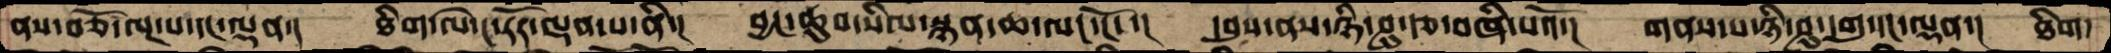ནས་བཅོ་ལྔ་པ་དང་ལྡན་།  ཐིག་ལེ་ང་རོར་ལྡན་པ་ནི་།  བྱང་ཆུབ་སིལ་སྙན་ཆ་ལང་ངོ་་།  དབུས་ནས་ཉི་ཤུ་རྩ་བཞི་པའོ་།  གནས་པ་ཉི་ཤུ་དགུ་དང་ལྡན་།  ཐིག་
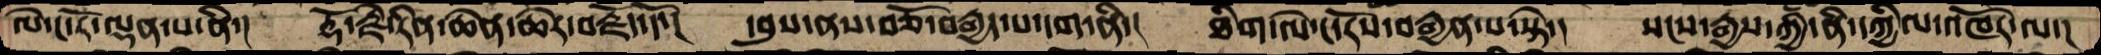ལེ་ང་རོ་ལྡན་པ་ནི་།  རྡོ་རྗེ་རིན་ཆེན་ཆེར་བརྗོད་དོ་།  དབུས་ནས་བཅོ་བརྒྱད་པ་དག་ནི་།  ཐིག་ལེ་ང་རོས་བརྒྱན་པ་སྟེ་།  སངས་རྒྱས་ཀྱི་ནི་དཀྱིལ་འཁོར་ལ་།
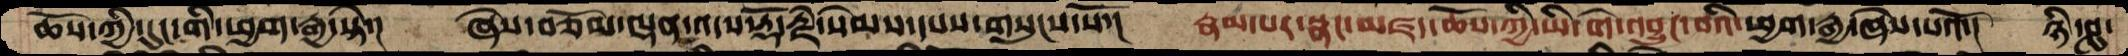ཆོས་ཀྱི་དུང་གི་ཕྱག་རྒྱ་སྟེ་།  ཞེས་བཅོམ་ལྡན་འདས་རྡོ་རྗེ་སེམས་དཔས་གསུངས་སོ་།  རྣམ་པར་སྣང་མཛད་ཆོས་ཀྱི་ཡི་གེ་འབྱུང་བའི་ཕྱག་རྒྱ་ཞེས་པའོ་།  ཉི་ཤུ་
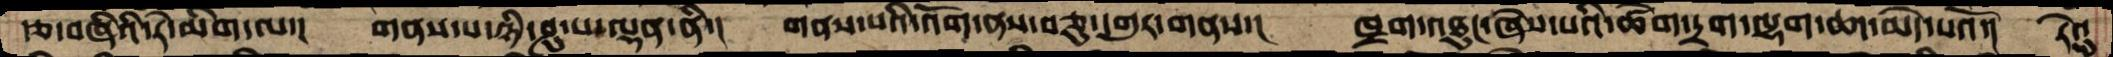རྩ་བཞིའི་རེ་མིག་ལ་།  གནས་པ་ཉི་ཤུ་པ་ལྡན་ནི་།  གནས་པའི་འོག་ནས་བཅུ་དགུར་གནས་།  ཁྲག་འཐུང་ཞེས་པའི་ཚེག་དྲག་ལྷག་ཆད་མེད་པའོ་།  རེའུ་
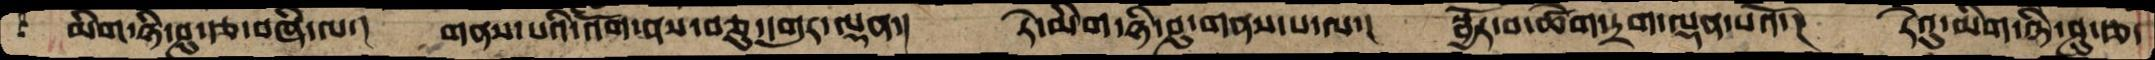མིག་ཉི་ཤུ་རྩ་བཞི་ལ་། གནས་པའི་འོོག་ནས་བཅུ་དགུར་ལྡན་། རེ་མིག་ཉི་ཤུ་གནས་པ་ལ་། སྦྱོར་བ་ཚེག་དྲག་ལྡན་པའོ་། རེའུ་མིག་ཉི་ཤུ་རྩ་
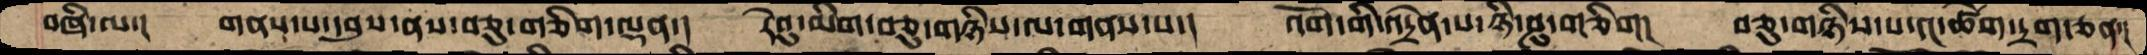བཞི་ལ་།  གནས་པ་དབུས་ནས་བཅུ་གཅིག་ལྡན་།  རེའུ་མིག་བཅུ་གཉིས་ལ་གནས་པ་།  འོག་གི་འདྲེན་པ་ཉི་ཤུ་གཅིག།  བཅུ་གཉིས་པ་དང་ཚེག་དྲག་ཅན་།
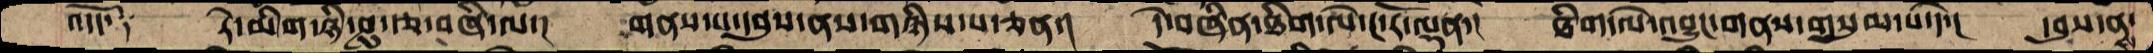འདོད༑  རེ་མིག་ཉི་ཤུ་རྩ་བཞི་ལ་།  གནས་པ་དབུས་ནས་གཉིས་པ་ཅན་། དེ་བཞིན་ཐིག་ལེ་ང་རོ་ལྡན་། ཐིག་ལེ་འབྱུང་གནས་གསུམ་པ་དེ་། དབུས་ནས་
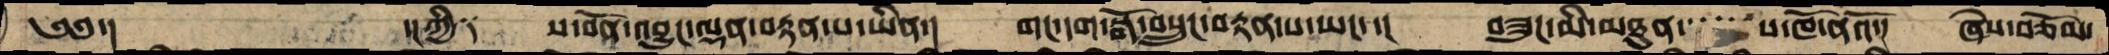༄༅་།     ་།ཀྱི༑    ས་བོན་འབྱུང་ལྡན་བརྟན་པ་ཡིན་།  གང་དག་སྒོ་བསྲུང་བརྟན་པ་ཡང་་།  གཟུཌ་མི་མཐུན་་་་་་པ་ཁོ་ནའོ་།  ཞེས་བཅོམ་
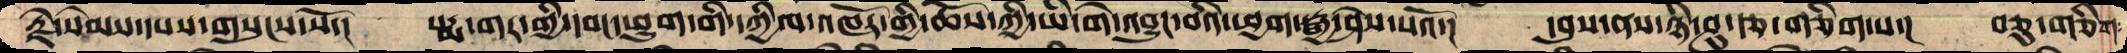རྗེ་སེམས་དཔས་གསུངས་ས་ོ་།  པདྨ་གར་གྱི་དབང་ཕྱུག་གི་དཀྱིལ་འཁོར་གྱི་ཆོས་ཀྱི་ཡི་གེ་འབྱུང་བའི་ཕྱག་རྒྱ་ཤེས་པའོ་།  དབུས་ནས་ཉི་ཤུ་རྩ་གཅིག་པ་།  བཅུ་གཅིག་
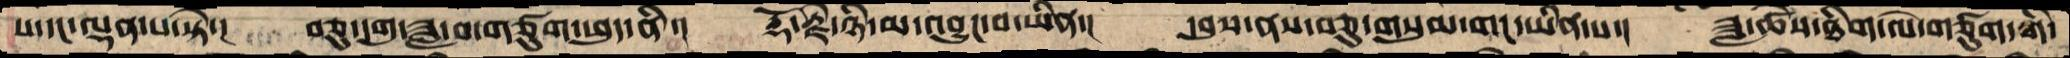པ་དང་ལྡན་པ་སྟེ་།  བཅུ་དགུ་ཟླ་བ་གཙུག་ཕུད་ནི་།  རྡོ་རྗེ་ཉི་མ་འབྱུང་བ་ཡིན་།  དབུས་ནས་བཅུ་གསུམ་གང་ཡིན་པ་།  ཟླ་ཚེས་ཐིག་ལེ་གཙུག་གི་
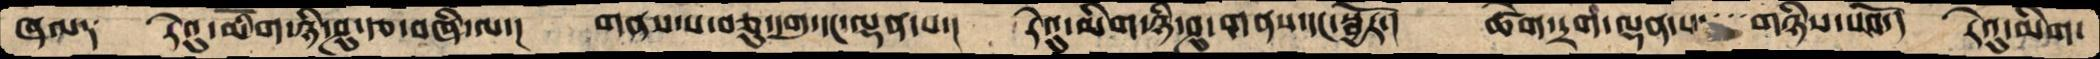ཞལ༑  རེའུ་མིག་ཉི་ཤུ་རྩ་བཞི་ལ་།  གནས་པ་བཅུ་དགུ་དང་ལྡན་པ་།  རེའུ་མིག་ཉི་ཤུ་གནས་དང་སྦྱོར་།  ཚེག་དྲག་ལྡན་པ་་་་གཉིས་པའོ་།  རེའུ་མིག་
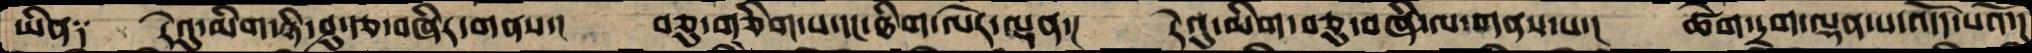ཡིན༑   རེའུ་མིག་ཉི་ཤུ་རྩ་བཞིར་གནས་།  བཅུ་གཅིག་པ་དང་ཐིག་ལེར་ལྡན་།   རེའུ་མིག་བཅུ་བཞི་ལ་གནས་པ་།   ཚེག་དྲག་ལྡན་པ་འདོད་པའོ་།
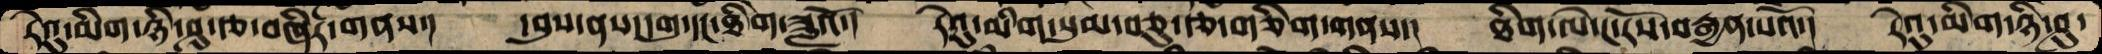རེའུ་མིག་ཉི་ཤུ་རྩ་བཞིར་གནས་།  དབུས་ནས་དགུ་དང་ཐིེག་ཟླའོ་།  རེའུ་མིག་སུམ་བཅུ་རྩ་གཅིག་གནས་།   ཐིག་ལེ་ང་རོས་བརྒྱན་པའོ་།  རེའུ་མིག་ཉི་ཤུ་
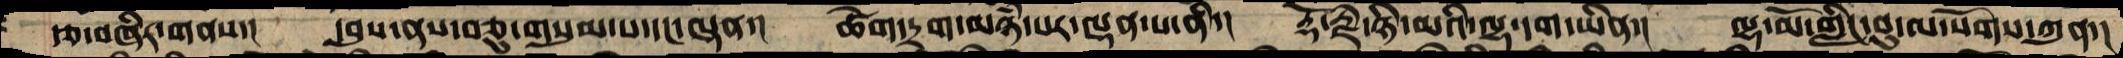རྩ་བཞིར་གནས་།  དབུས་ནས་བཅུ་གསུམ་པ་དང་ལྡན་།  ཚེག་དྲག་མཉཾ་པར་ལྡན་པ་ནི་།  རྡོ་རྗེ་ཉི་མའི་ལྷ་དག་ཡིན་།  ལྷ་མོ་གླིང་བུ་ལ་སོགས་ཀུན་།
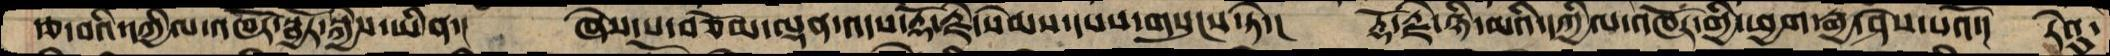རྩ་བའི་དཀྱིལ་འཁོར་སྦྱོར་སྐྱེས་ཡིན་།  ཞེས་པ་བཅོམ་ལྡན་འདས་རྡོ་རྗེ་སེམས་དཔས་གསུངས་ཏེ་།  རྡོརྗེ་ཉི་མའི་དཀྱིལ་འཁོར་གྱི་ཕྱག་རྒྱ་ཤེས་པའོ་།  རེའུ་
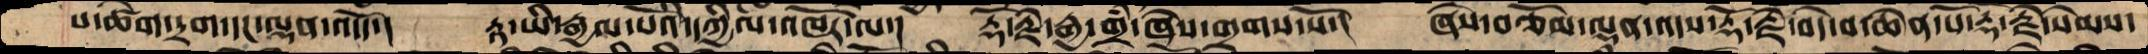པ་ཚེག་དྲག་དང་ལྡན་འདོད་། རྟ་ཡི་རྒྱལ་པོའི་དཀྱིལ་འཁོར་ལ་།  རྡོ་རྗེ་རྒྱ་གྲཾ་ཞེས་་གྲགས་སོ་།  ཞེས་བཅོམ་ལྡན་འདས་རྡོ་རྗེ་བདེ་བ་ཆེན་པོ་རྡོ་རྗེ་སེམས་
